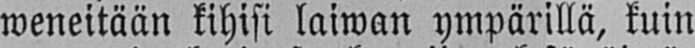weneitään kihisi laiwan ympärillä, kuin
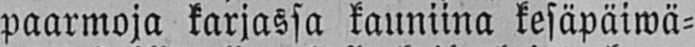paarmoja karjassa kauniina kesäpäiwä-
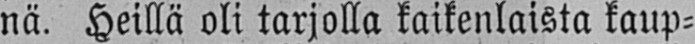nä. Heillä oli tarjolla kaikenlaista kaup-
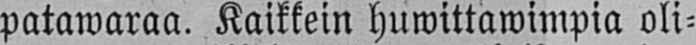patawaraa. Kaikkein huwittawimpia oli-
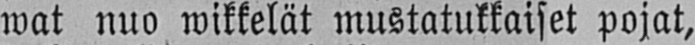wat nuo wikkelät mustatukkaiset pojat,
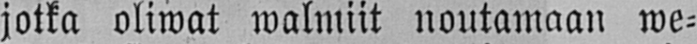jotka oliwat walmiit noutamaan we-
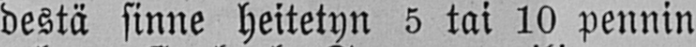destä sinne heitetyn 5 tai 10 pennin
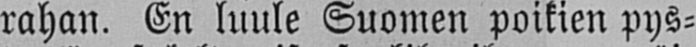rahan. En luule Suomen poikien pys-
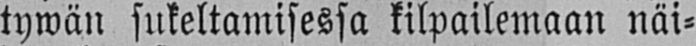tywän sukeltamisessa kilpailemaan näi-
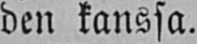den kanssa.
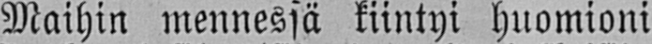Maihin mennessä kiintyi huomioni
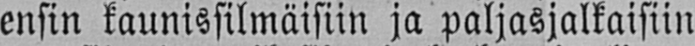ensin kaunissilmäisiin ja paljasjalkaisiin
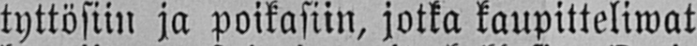tyttösiin ja poikasiin, jotka kaupitteliwat
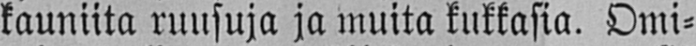kauniita ruusuja ja muita kukkasia. Omi-
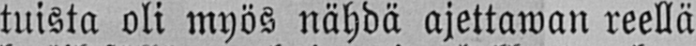tuista oli myös nähdä ajettawan reellä
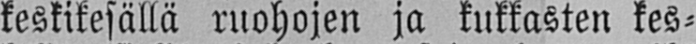keskikesällä ruohojen ja kukkasten kes-
